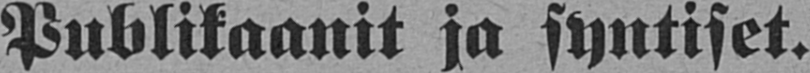Publikaanit ja syntiset.
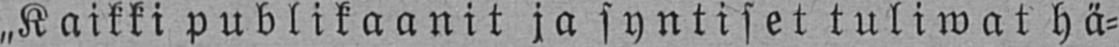„Kaikki publikaanit ja syntiset tuliwat hä-
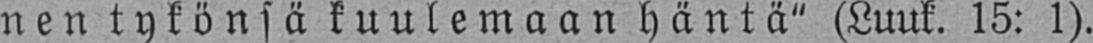nen tykönsä kuulemaan häntä" (Luuk. 15: 1).
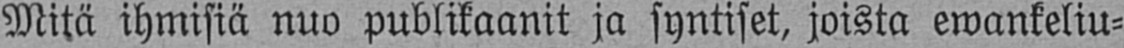Mitä ihmisiä nuo publikaanit ja syntiset, joista ewankeliu-
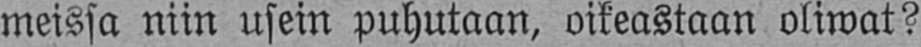meissa niin usein puhutaan, oikeastaan oliwat?
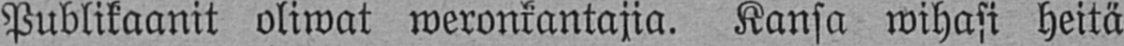Publikaanit oliwat weronkantajia. Kansa wihasi heitä
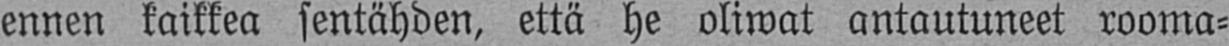ennen kaikkea sentähden, että he oliwat antautuneet rooma-
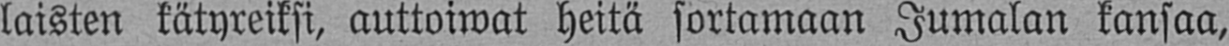laisten kätyreiksi, auttoiwat heitä sortamaan Jumalan kansaa,
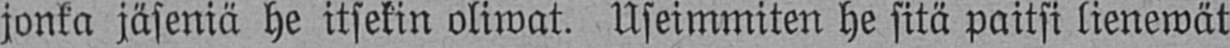jonka jäseniä he itsekin oliwat. Useimmiten he sitä paitsi lienewät
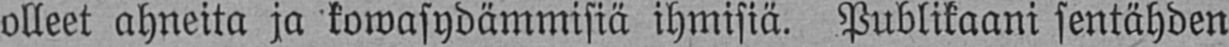olleet ahneita ja kowasydämmisiä ihmisiä. Publikaani sentähden
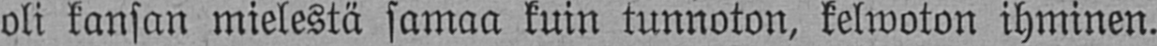oli kansan mielestä samaa kuin tunnoton, kelwoton ihminen.
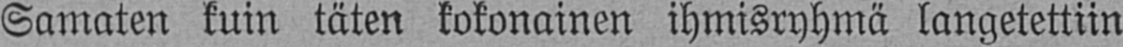Samaten kuin täten kokonainen ihmisryhmä langetettiin
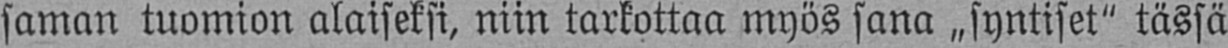saman tuomion alaiseksi, niin karkottaa myös sana „syntiset" tässä
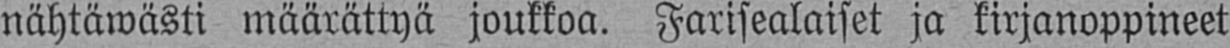nähtäwästi määrättyä joukkoa. Farisealaiset ja kirjanoppineet
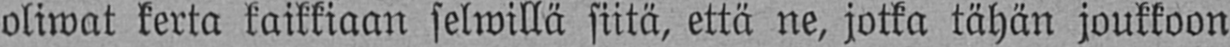oliwat kerta kaikkiaan selwillä siitä, että ne, jotka tähän joukkoon
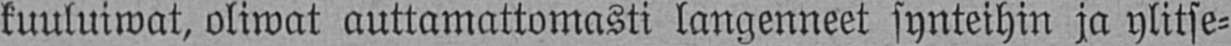kuuluiwat, oliwat auttamattomasti langenneet synteihin ja ylitse-
